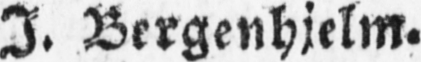I. Bergenhjelm.
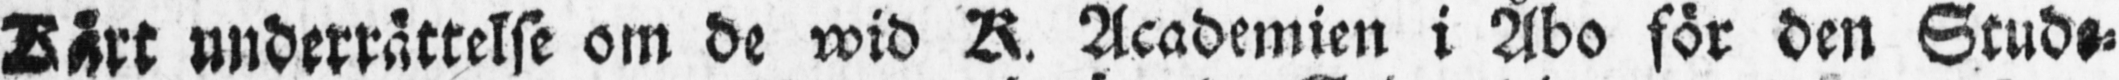Kårt underrättelse om de wid K. Academien i Åbo för den Stude-
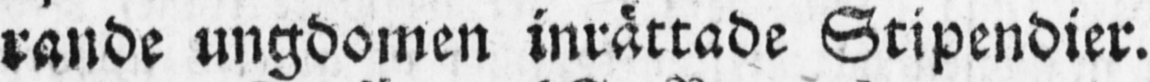rande ungdomen inrättade Stipendier.
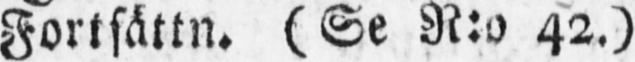Fortsättn. (Se N:o 42.)
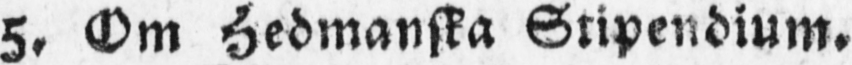5. Om Hedmanska Stipendium.
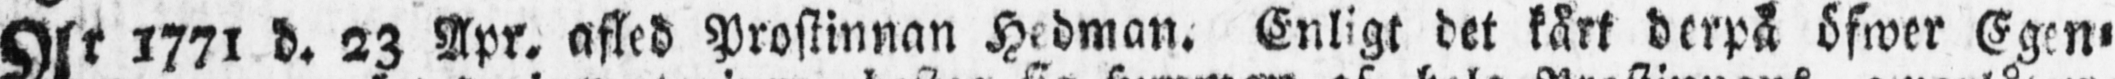Å r 1771 d. 23 Apr. afled Prostinnan Hedman. Enligt det kårt derpå öfwer Egen-
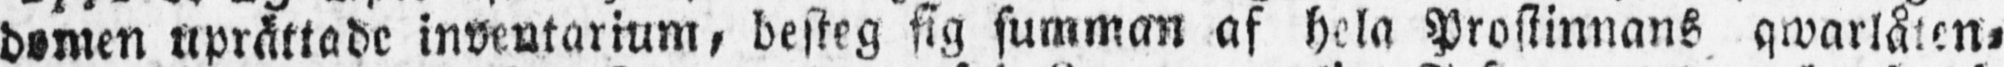domen uprättade inventarium, besteg sig summan af hela Prostinnans qwarlåten-
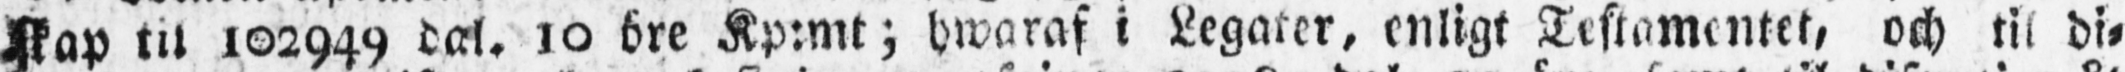skap til 102949 dal. 10 öre Kp:mt; hwaraf i Legater, enligt Testamentet, och til di-
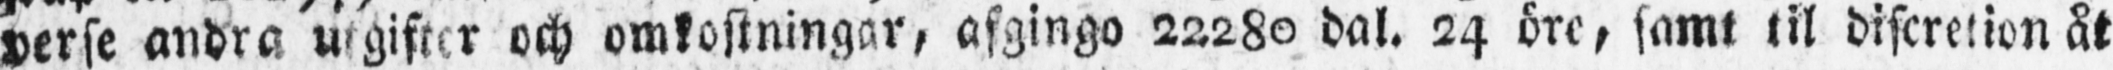verse andra utgifter och omkostningar, afgingo 22280 dal. 24 öre, samt til discretion åt
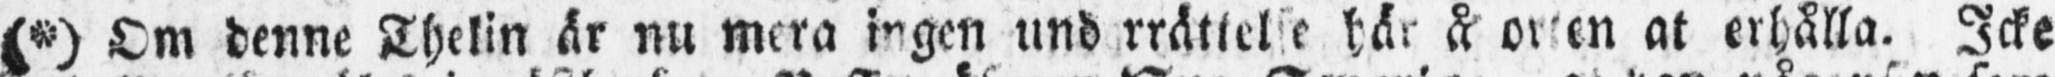(*) Om denne Thelin är nu mera ingen underrättelse här å orten at erhålla. Icke
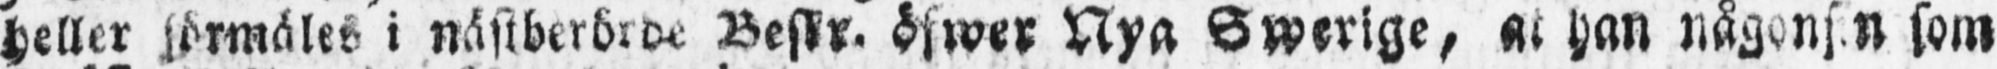heller förmäles i nästberörde Beskr. öfwer Nya Swerige, at han någonsin som
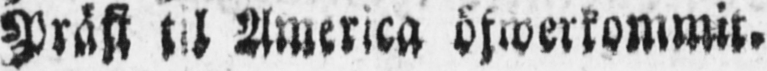Präst til America öfwerkommit.
